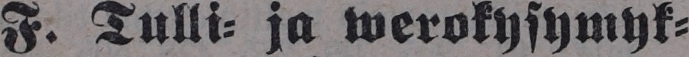F. Tulli- ja werokysymyk-
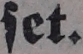set.
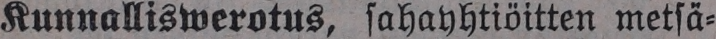Kunnalliswerotus, sahayhtiöitten metsä-
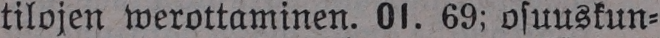tilojen werottaminen. 01. 69: osuuskun-
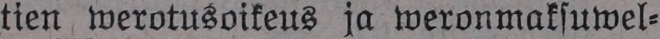tien werotusoikeus ja weronmaksuwel-
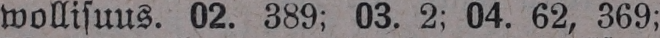wollisuus. 02. 389; 03. 2; 04. 62, 369;
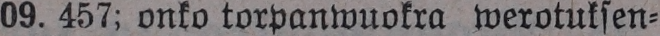09. 457; onko torpanwuokra werotuksen-
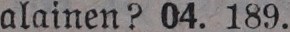alainen? 04. 189.
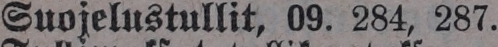Suojelustullit, 09. 284, 287.
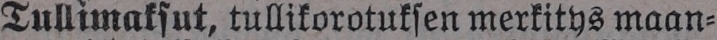Tullimaksut, tullikorotuksen merkitys maan-
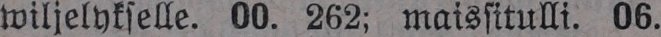wiljelykselle. 00. 262; maissitulli. 06.
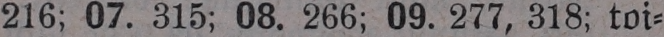216; 07. 315; 08. 266; 09. 277, 318; toi-
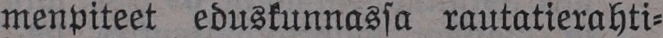menpiteet eduskunnassa rautatierahti-
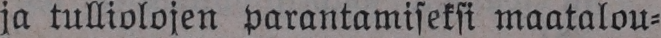ja tulliolojen parantamiseksi maatalou-
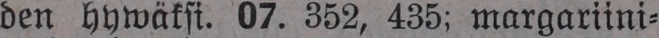den hywäksi. 07. 352, 435; margariini-
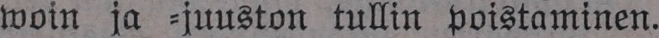woin ja -juuston tullin poistaminen.
